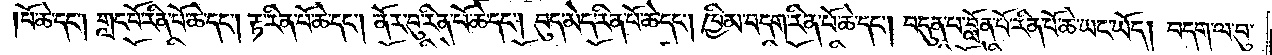པོ་ཆེ་དང༌། གླང་པོ་རིན་པོ་ཆེ་དང༌། རྟ་རིན་པོ་ཆེ་དང༌། ནོར་བུ་རིན་པོ་ཆེ་དང༌། བུད་མེད་རིན་པོ་ཆེ་དང༌། ཁྱིམ་བདག་རིན་པོ་ཆེ་དང༌། བདུན་པ་བློན་པོ་རིན་པོ་ཆེ་ཡང་ཡོད། བདག་ལ་བུ་
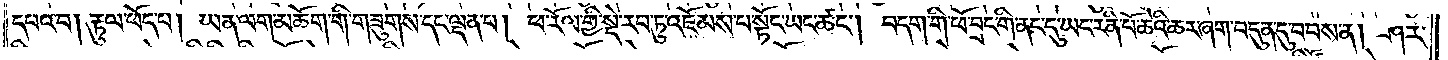དཔའ་བ། རྟུལ་ཕོད་པ། ཡན་ལག་མཆོག་གི་གཟུགས་དང་ལྡན་པ། ཕ་རོལ་གྱི་སྡེ་རབ་ཏུ་འཇོམས་པ་སྟོང་ཡང་ཚང༌། བདག་གི་ཕོ་བྲང་གི་ནང་དུ་ཡང་རིན་པོ་ཆེའི་ཆར་ཞག་བདུན་དུ་བབས་ན། ཤར་
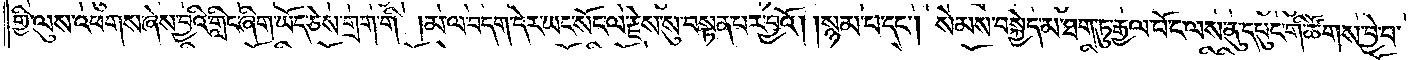གྱི་ལུས་འཕགས་ཞེས་བྱའི་གླིང་ཞིག་ཡོད་ཅེས་གྲག་གི །མ་ལ་བདག་དེར་ཡང་སོང་ལ་རྗེས་སུ་བསྟན་པར་བྱའོ། །སྙམ་པ་དང༌། སེམས་བསྐྱེད་མ་ཐག་ཏུ་རྒྱལ་པོ་ང་ལས་ནུ་དཔུང་གི་ཚོགས་བྱེ་བ་
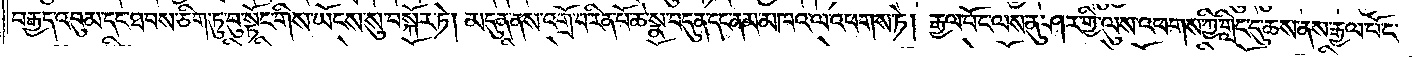བརྒྱད་འབུམ་དང་ཐབས་ཅིག་ཏུ་བུ་སྟོང་གིས་ཡོངས་སུ་བསྐོར་ཏེ། མདུན་ནས་འགྲོ་བ་རིན་པོ་ཆེ་སྣ་བདུན་དང་ནམ་མཁའ་ལ་འཕགས་ཏེ། རྒྱལ་པོ་ང་ལས་ནུ་ཤར་གྱི་ལུས་འཕགས་ཀྱི་གླིང་དུ་ཆས་ནས་རྒྱལ་པོ་ང་
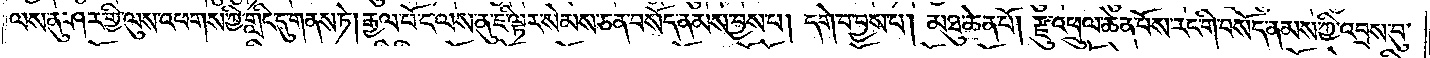ལས་ནུ་ཤར་གྱི་ལུས་འཕགས་ཀྱི་གླིང་དུ་གནས་ཏེ། རྒྱལ་པོ་ང་ལས་ནུ་ཇི་ལྟར་སེམས་ཅན་བསོད་ནམས་བྱས་པ། དགེ་བ་བྱས་པ། མཐུ་ཆེན་པོ། རྫུ་འཕྲུལ་ཆེན་པོས་རང་གི་བསོད་ནམས་ཀྱི་འབྲས་བུ་
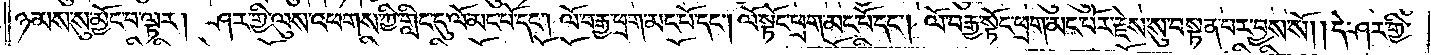ཉམས་སུ་མྱོང་བ་ལྟར། ཤར་གྱི་ལུས་འཕགས་ཀྱི་གླིང་དུ་ལོ་མང་པོ་དང༌། ལོ་བརྒྱ་ཕྲག་མང་པོ་དང༌། ལོ་སྟོང་ཕྲག་མང་པོ་དང༌། ལོ་བརྒྱ་སྟོང་ཕྲག་མང་པོར་རྗེས་སུ་བསྟན་པར་བྱས་སོ། །དེ་ཤར་གྱི་
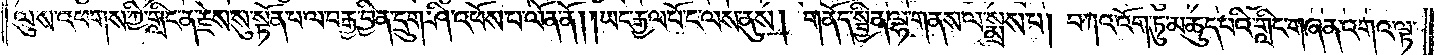ལུས་འཕགས་ཀྱི་གླིང་ན་རྗེས་སུ་སྟོན་པ་ལ་བརྒྱ་བྱིན་དྲུག་ཤི་འཕོས་པ་ལོན་ནོ། །ཡང་རྒྱལ་པོ་ང་ལས་ནུས། གནོད་སྦྱིན་ལྷ་གནས་ལ་སྨྲས་པ། བཀའ་འོག་ཏུ་མ་ཆུད་པའི་གླིང་གཞན་འགའ་ལྟ་
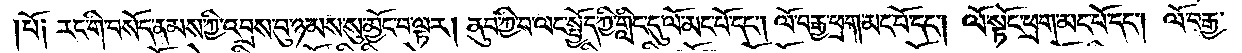པོ༑ རང་གི་བསོད་ནམས་ཀྱི་འབྲས་བུ་ཉམས་སུ་མྱོང་བ་ལྟར། ནུབ་ཀྱི་བ་ལང་སྤྱོད་ཀྱི་གླིང་དུ་ལོ་མང་པོ་དང༌། ལོ་བརྒྱ་ཕྲག་མང་པོ་དང༌། ལོ་སྟོང་ཕྲག་མང་པོ་དང༌། ལོ་བརྒྱ་
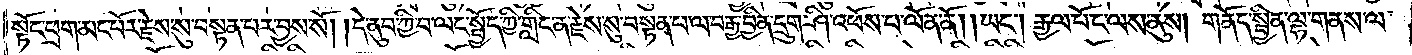སྟོང་ཕྲག་མང་པོར་རྗེས་སུ་བསྟན་པར་བྱས་སོ། །དེ་ནུབ་ཀྱི་བ་ལང་སྤྱོད་ཀྱི་གླིང་ན་རྗེས་སུ་བསྟན་པ་ལ་བརྒྱ་བྱིན་དྲུག་ཤི་འཕོས་པ་ལོན་ནོ། །ཡང༌། རྒྱལ་པོ་ང་ལས་ནུས། གནོད་སྦྱིན་ལྷ་གནས་ལ་
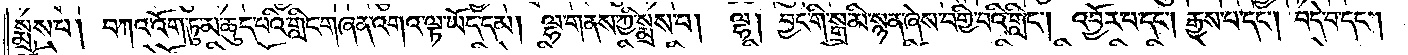སྨྲས་པ། བཀའ་འོག་ཏུ་མ་ཆུད་པའི་གླིང་གཞན་འགའ་ལྟ་ཡོད་དམ། ལྷ་གནས་ཀྱི་སྨྲས་པ། ལྷ། བྱང་གི་སྒྲ་མི་སྙན་ཞེས་བགྱི་བའི་གླིང༌། འབྱོར་བ་དང༌། རྒྱས་པ་དང༌། བདེ་བ་དང༌།
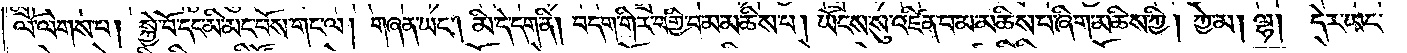ལོ་ལེགས་པ། སྐྱེ་བོ་དང་མི་མང་པོས་གང་ལ། གཞན་ཡང༌། མི་དེ་དག་ནི། བདག་གིར་བགྱི་བ་མ་མཆིས་པ། ཡོངས་སུ་འཛིན་པ་མ་མཆིས་པ་ཞིག་མཆིས་ཀྱི། ཀྱེ་མ། ལྷ། དེར་ཡང་
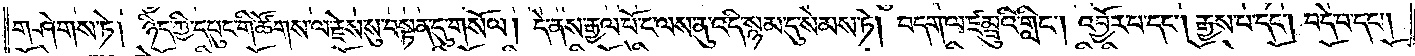གཤེགས་ཏེ། ཉིད་ཀྱི་དཔུང་གི་ཚོགས་ལ་རྗེས་སུ་བསྟན་དུ་གསོལ། །དེ་ནས་རྒྱལ་པོ་ང་ལས་ནུ་འདི་སྙམ་དུ་སེམས་ཏེ། བདག་ལ་ཛམྦུའི་གླིང༌། འབྱོར་པ་དང༌། རྒྱས་པ་དང༌། བདེ་བ་དང༌།
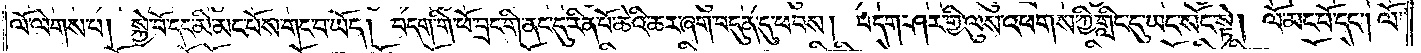ལོ་ལེགས་པ། སྐྱེ་བོ་དང་མི་མང་པོས་གང་བ་ཡོད། བདག་གི་ཕོ་བྲང་གི་ནང་དུ་རིན་པོ་ཆེའི་ཆར་ཞག་བདུན་དུ་ཕབས། བདག་ཤར་གྱི་ལུས་འཕགས་ཀྱི་གླིང་དུ་ཡང་སོང་སྟེ། ལོ་མང་པོ་དང༌། ལོ་
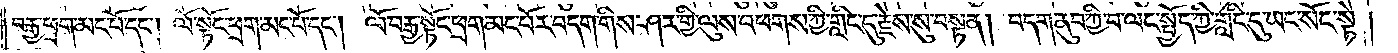བརྒྱ་ཕྲག་མང་པོ་དང༌། ལོ་སྟོང་ཕྲག་མང་པོ་དང༌། ལོ་བརྒྱ་སྟོང་ཕྲག་མང་པོར་བདག་གིས་ཤར་གྱི་ལུས་འཕགས་ཀྱི་གླིང་དུ་རྗེས་སུ་བསྟན། བདག་ནུབ་ཀྱི་བ་ལང་སྤྱོད་ཀྱི་གླིང་དུ་ཡང་སོང་སྟེ།
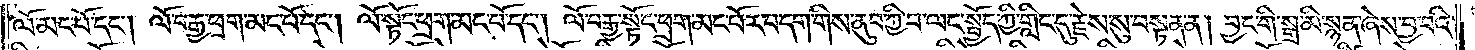ལོ་མང་པོ་དང༌། ལོ་བརྒྱ་ཕྲག་མང་པོ་དང༌། ལོ་སྟོང་ཕྲག་མང་པོ་དང༌། ལོ་བརྒྱ་སྟོང་ཕྲག་མང་པོར་བདག་གིས་ནུབ་ཀྱི་བ་ལང་སྤྱོད་ཀྱི་གླིང་དུ་རྗེས་སུ་བསྟན་ན། བྱང་གི་སྒྲ་མི་སྙན་ཞེས་བྱ་བའི་
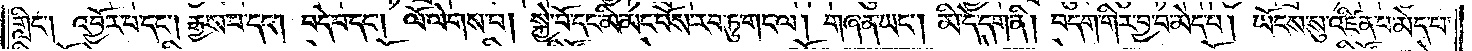གླིང༌། འབྱོར་པ་དང༌། རྒྱས་པ་དང༌། བདེ་བ་དང༌། ལོ་ལེགས་པ། སྐྱེ་བོ་དང་མི་མང་པོས་རབ་ཏུ་གང་ལ། གཞན་ཡང༌། མི་དེ་དག་ནི། བདག་གིར་བྱ་བ་མེད་པ། ཡོངས་སུ་འཛིན་པ་མེད་པ་
